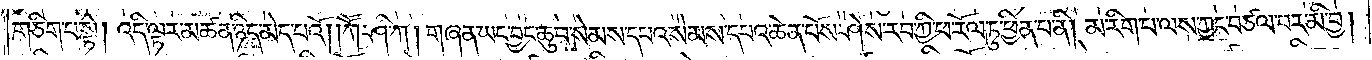གཅིག་པ་སྟེ། འདི་ལྟར་མཚན་ཉིད་མེད་པའོ། །ཀཽ་ཤི་ཀ། གཞན་ཡང་བྱང་ཆུབ་སེམས་དཔའ་སེམས་དཔའ་ཆེན་པོས་ཤེས་རབ་ཀྱི་ཕ་རོལ་ཏུ་ཕྱིན་པ་ནི། མ་རིག་པ་ལས་ཀྱང་བཙལ་བར་མི་བྱ།
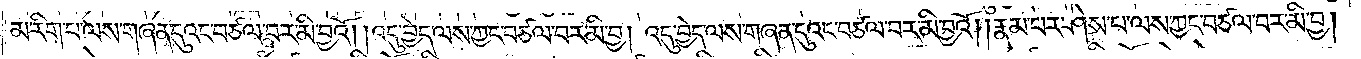མ་རིག་པ་ལས་གཞན་དུའང་བཙལ་བར་མི་བྱའོ། །འདུ་བྱེད་ལས་ཀྱང་བཙལ་བར་མི་བྱ། འདུ་བྱེད་ལས་གཞན་དུའང་བཙལ་བར་མི་བྱའོ། །རྣམ་པར་ཤེས་པ་ལས་ཀྱང་བཙལ་བར་མི་བྱ།
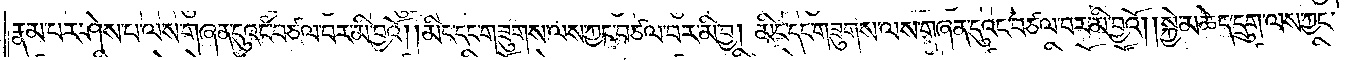རྣམ་པར་ཤེས་པ་ལས་གཞན་དུའང་བཙལ་བར་མི་བྱའོ། །མིང་དང་གཟུགས་ལས་ཀྱང་བཙལ་བར་མི་བྱ། མིང་དང་གཟུགས་ལས་གཞན་དུའང་བཙལ་བར་མི་བྱའོ། །སྐྱེ་མཆེད་དྲུག་ལས་ཀྱང་
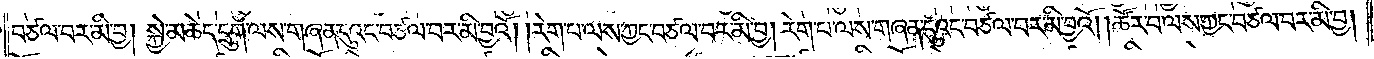བཙལ་བར་མི་བྱ། སྐྱེ་མཆེད་དྲུག་ལས་གཞན་དུའང་བཙལ་བར་མི་བྱའོ། །རེག་པ་ལས་ཀྱང་བཙལ་བར་མི་བྱ། རེག་བ་ལས་གཞན་དུའང་བཙལ་བར་མི་བྱའོ། །ཚོར་བ་ལས་ཀྱང་བཙལ་བར་མི་བྱ།
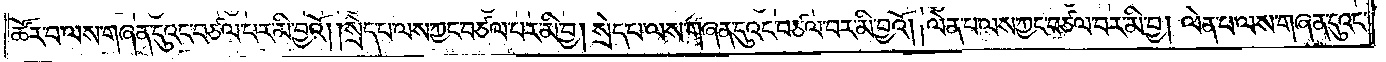ཚོར་བ་ལས་གཞན་དུའང་བཙལ་བར་མི་བྱའོ། །སྲེད་པ་ལས་ཀྱང་བཙལ་བར་མི་བྱ། སྲེད་པ་ལས་གཞན་དུའང་བཙལ་བར་མི་བྱའོ། །ལེན་པ་ལས་ཀྱང་བཙལ་བར་མི་བྱ། ལེན་པ་ལས་གཞན་དུའང་
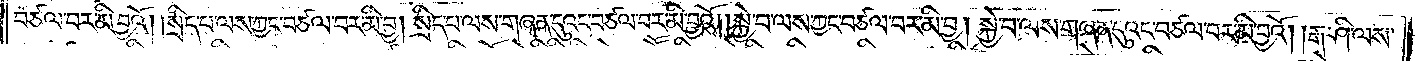བཙལ་བར་མི་བྱའོ། །སྲིད་པ་ལས་ཀྱང་བཙལ་བར་མི་བྱ། སྲིད་པ་ལས་གཞན་དུའང་བཙལ་བར་མི་བྱའོ། །སྐྱེ་བ་ལས་ཀྱང་བཙལ་བར་མི་བྱ། སྐྱེ་བ་ལས་གཞན་དུའང་བཙལ་བར་མི་བྱའོ། །རྒ་ཤི་ལས་
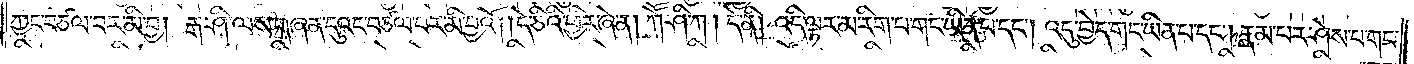ཀྱང་བཙལ་བར་མི་བྱ། རྒ་ཤི་ལས་གཞན་དུའང་བཙལ་བར་མི་བྱའོ། །དེ་ཅིའི་ཕྱིར་ཞེ་ན། ཀཽ་ཤི་ཀ །དེ་ནི། འདི་ལྟར་མ་རིག་པ་གང་ཡིན་པ་དང༌། འདུ་བྱེད་གང་ཡིན་པ་དང༌། རྣམ་པར་ཤེས་པ་གང་
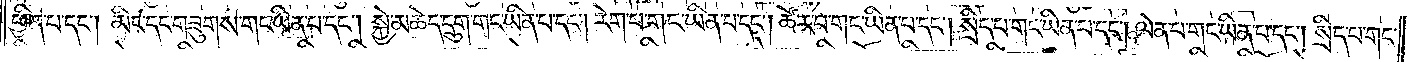ཕྱིན་པ་དང༌། མིང་དང་གཟུགས་གང་ཡིན་པ་དང༌། སྐྱེ་མཆེད་དྲུག་གང་ཡིན་པ་དང༌། རེག་པ་གང་ཡིན་པ་དང༌། ཚོར་བ་གང་ཡིན་པ་དང༌། སྲིད་པ་གང་ཡིན་པ་དང༌། ལེན་པ་གང་ཡིན་པ་དང༌། སྲིད་པ་གང་
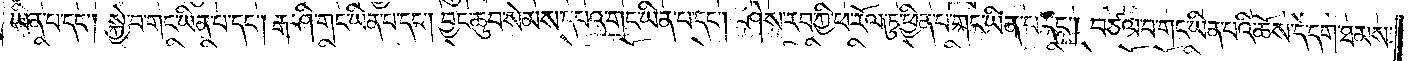ཡིན་པ་དང༌། སྐྱེ་བ་གང་ཡིན་པ་དང༌། རྒ་ཤི་གང་ཡིན་པ་དང༌། བྱང་ཆུབ་སེམས་དཔའ་གང་ཡིན་པ་དང༌། ཤེས་རབ་ཀྱི་ཕ་རོལ་ཏུ་ཕྱིན་པ་གང་ཡིན་པ་དང༌། བཙལ་བ་གང་ཡིན་པའི་ཆོས་དེ་དག་ཐམས་
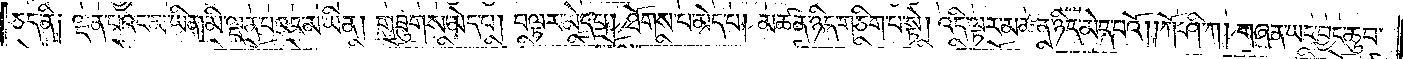ཅད་ནི། ལྡན་པའང་མ་ཡིན་མི་ལྡན་པའང་མ་ཡིན། གཟུགས་མེད་པ། བལྟར་མེད་པ། ཐོགས་པ་མེད་པ། མཚན་ཉིད་གཅིག་པ་སྟེ། འདི་ལྟར་མཚན་ཉིད་མེད་པའོ། །ཀཽ་ཤི་ཀ། གཞན་ཡང་བྱང་ཆུབ་
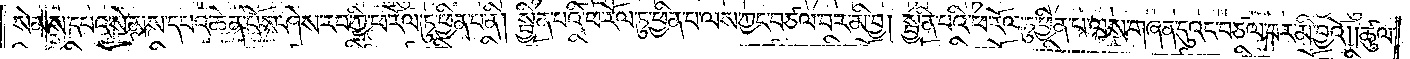སེམས་དཔའ་སེམས་དཔའ་ཆེན་པོས་ཤེས་རབ་ཀྱི་ཕ་རོལ་ཏུ་ཕྱིན་པ་ནི། སྦྱིན་པའི་ཕ་རོལ་ཏུ་ཕྱིན་པ་ལས་ཀྱང་བཙལ་བར་མི་བྱ། སྦྱིན་པའི་ཕ་རོལ་ཏུ་ཕྱིན་པ་ལས་གཞན་དུའང་བཙལ་བར་མི་བྱའོ། །ཚུལ་
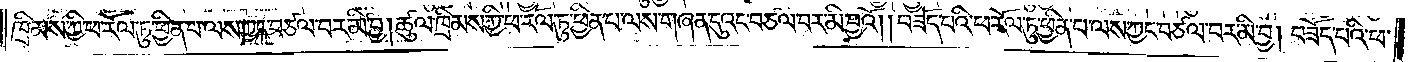ཁྲིམས་ཀྱི་ཕ་རོལ་ཏུ་ཕྱིན་པ་ལས་ཀྱང་བཙལ་བར་མི་བྱ། ཚུལ་ཁྲིམས་ཀྱི་ཕ་རོལ་ཏུ་ཕྱིན་པ་ལས་གཞན་དུའང་བཙལ་བར་མི་བྱའོ། །བཟོད་པའི་ཕ་རོལ་ཏུ་ཕྱིན་པ་ལས་ཀྱང་བཙལ་བར་མི་བྱ། བཟོད་པའི་ཕ་
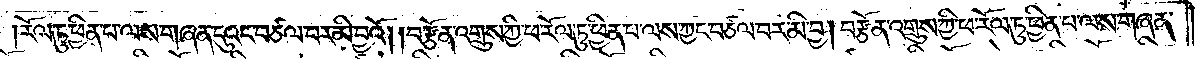རོལ་ཏུ་ཕྱིན་པ་ལས་གཞན་དུའང་བཙལ་བར་མི་བྱའོ། །བརྩོན་འགྲུས་ཀྱི་ཕ་རོལ་ཏུ་ཕྱིན་པ་ལས་ཀྱང་བཙལ་བར་མི་བྱ། བརྩོན་འགྲུས་ཀྱི་ཕ་རོལ་ཏུ་ཕྱིན་པ་ལས་གཞན་
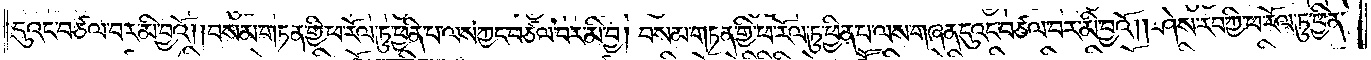དུའང་བཙལ་བར་མི་བྱའོ། །བསམ་གཏན་གྱི་ཕ་རོལ་ཏུ་ཕྱིན་པ་ལས་ཀྱང་བཙལ་བར་མི་བྱ། བསམ་གཏན་གྱི་ཕ་རོལ་ཏུ་ཕྱིན་པ་ལས་གཞན་དུའང་བཙལ་བར་མི་བྱའོ། །ཤེས་རབ་ཀྱི་ཕ་རོལ་ཏུ་ཕྱིན་
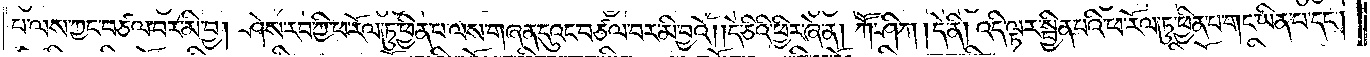པ་ལས་ཀྱང་བཙལ་བར་མི་བྱ། ཤེས་རབ་ཀྱི་ཕ་རོལ་ཏུ་ཕྱིན་པ་ལས་གཞན་དུའང་བཙལ་བར་མི་བྱའོ། །དེ་ཅིའི་ཕྱིར་ཞེ་ན། ཀཽ་ཤི་ཀ །དེ་ནི། འདི་ལྟར་སྦྱིན་པའི་ཕ་རོལ་ཏུ་ཕྱིན་པ་གང་ཡིན་པ་དང༌།
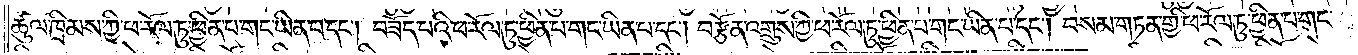ཚུལ་ཁྲིམས་ཀྱི་ཕ་རོལ་ཏུ་ཕྱིན་པ་གང་ཡིན་པ་དང༌། བཟོད་པའི་ཕ་རོལ་ཏུ་ཕྱིན་པ་གང་ཡིན་པ་དང༌། བརྩོན་འགྲུས་ཀྱི་ཕ་རོལ་ཏུ་ཕྱིན་པ་གང་ཡིན་པ་དང༌། བསམ་གཏན་གྱི་ཕ་རོལ་ཏུ་ཕྱིན་པ་གང་
